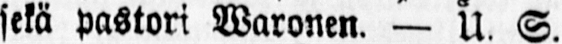sekä pastori Waronen. — U. S.
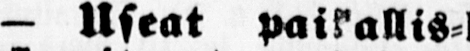- Useat paikallis-hätä-
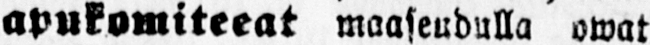apukomiteeat maaseudulla owat
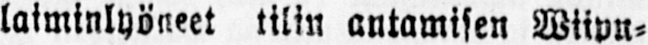laiminlyöneet tilin antamisen Wiipu-
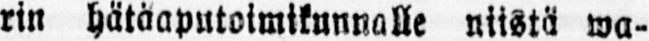rin hätäaputoimikunnalle niistä wa-
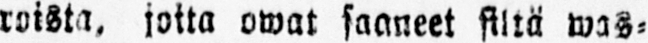roista, jotka owat saaneet sillä was-
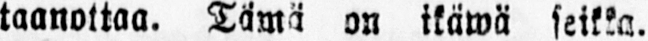taanottaa. Tämä on ikäwä seikka.
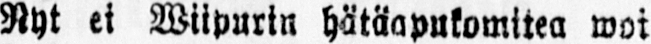Nyt ei Wiipurin hätäapukomitea woi
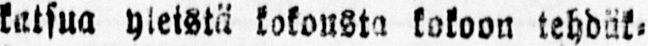kutsua yleistä kokousta kokoon tehdäk-
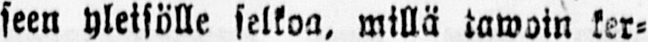seen yleisölle selkoa, millä tawoin ker-
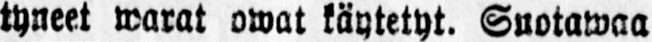tyneet warat owat käytetyt. Suotawaa
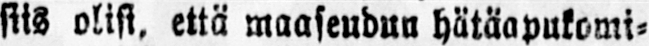siis olisi, että maaseudun hätäapukomi-
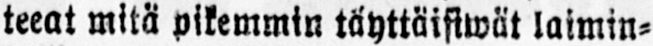teeat mitä pikemmin täyttäisiwät laimin-
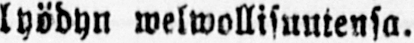lyödyn welwollisuntensa.
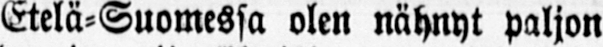Etelä-Suomessa olen nähnyt paljon
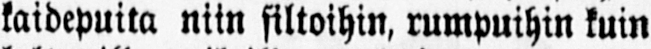kaidepuila niin siltoihin, rumpuihin kuin
